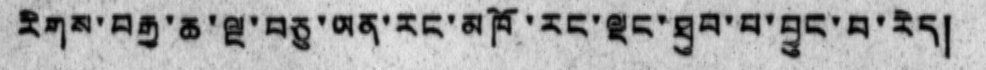རིགས་བརྒྱ་ཆ་ལྔ་བཅུ་ཡན་རང་མཁོ་རང་ལྡང་ཐུབ་པ་བྱུང་བ་རེད།
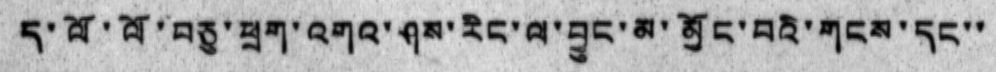ད་ལོ་ལོ་བཅུ་ཕྲག་འགའ་ཤས་རིང་ལ་བྱུང་མ་མྱོང་བའི་གངས་དང་་
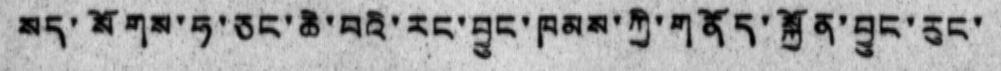སད་སོགས་ཧ་ཅང་ཆེ་བའི་རང་བྱུང་ཁམས་ཀྱི་གནོད་སྐྱོན་བྱུང་རུང་
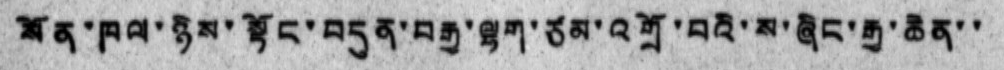སོན་ཁལ་ཉིས་སྟོང་བདུན་བརྒྱ་ལྷག་ཙམ་འགྲོ་བའི་ས་ཞིང་རྒྱ་ཆེན་་
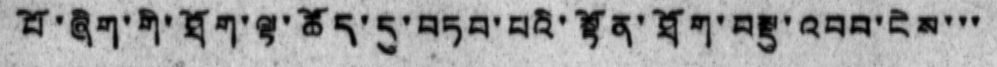པོ་ཞིག་གི་ཐོག་ལྟ་ཚོད་དུ་བཏབ་བའི་སྟོན་ཐོག་བསྡུ་འབབ་ངེས་་་
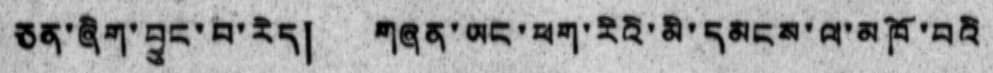ཅན་ཞིག་བྱུང་བ་རེད། གཞན་ཡང་ཕག་རིའི་མི་དམངས་ལ་མཁོ་བའི
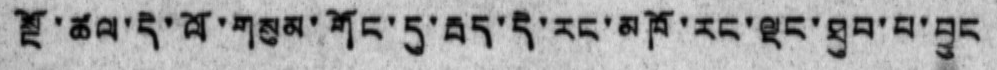སྔོ་ཚལ་དེ་ལོ་གསུམ་གོང་དུ་རྦད་དེ་རང་མཁོ་རང་ལྡང་ཐུབ་པ་བྱུང
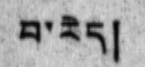བ་རེད།
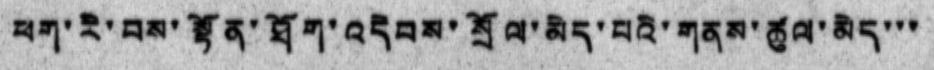ཕག་རི་བས་སྟོན་ཐོག་འདེབས་སྲོལ་མེད་པའི་གནས་ཚུལ་མེད་་་
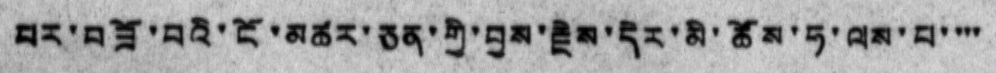པར་བཟོ་བའི་ངོ་མཚར་ཅན་གྱི་བྱས་རྗིས་དེར་མི་ཚོས་ཧ་ལས་པ་་་་
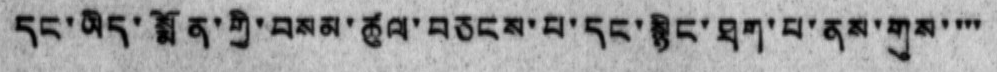དང་ཡིད་སྨོན་གྱི་བཟམ་ཚུལ་བཅངས་བ་དང་སྙིང་ཐག་པ་ནས་གུས་་་་་
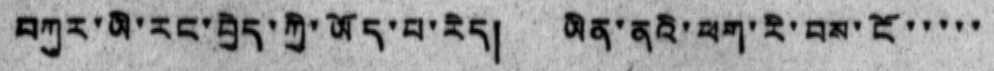བཀུར་མི་རང་བྱེད་ཀྱི་ཡོད་པ་རེད། ཡིན་ནའི་ཕག་རི་བས་ངོ་་་་་
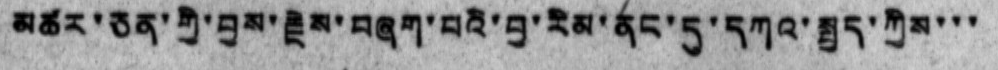མཚར་ཅན་གྱི་བྱས་རྗེས་བཞག་པའི་བྱ་རིམ་ནང་དུ་དཀའ་སྤྱད་ཀྱིས་་་
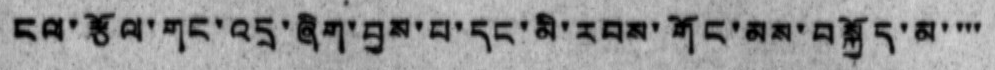ངལ་རྩོལ་གང་འདྲ་ཞིག་བྱས་པ་དང་མི་རབས་གོང་མས་བསྐྱོད་མ་་་་
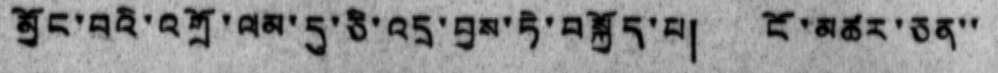མྱོང་བའི་འགྲོ་ལམ་དུ་ཅི་འདྲ་བྱས་ཏེ་བསྐྱོད་པ། ངོ་མཚར་ཅན་་
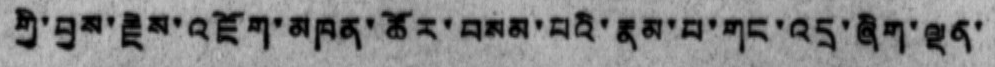གྱི་བྱས་རྗེས་འཇོག་མཁན་ཚོར་བསམ་པའི་རྣམ་པ་གང་འདྲ་ཞིག་ལྡན་
